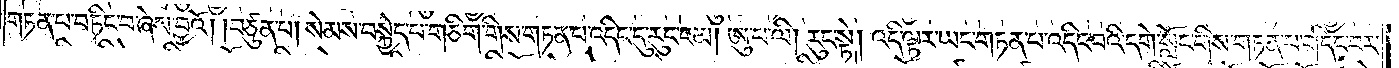གཏན་པ་བཏིང་བ་ཞེས་བྱའོ། །བཙུན་པ། སེམས་བསྐྱེད་པ་གཅིག་གིས་གཏན་པ་འདིང་དུ་རུང་ངམ། ཨུ་པ་ལི། རུང་སྟེ། འདི་ལྟར་ཡང་གཏན་པ་འདིང་བའི་དགེ་སློང་གིས་གཏན་པ་གདིང་བར་
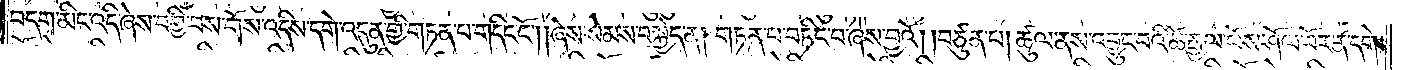བདག་མིང་འདི་ཞེས་བགྱི་བས་གོས་འདིས་དགེ་འདུན་གྱི་གཏན་པ་གདིང་ངོ༌། །ཞེས་སེམས་བསྐྱེད་ན། གཏན་པ་བཏིང་བ་ཞེས་བྱའོ། །བཙུན་པ། ཚུལ་ནས་འབྱུང་བའི་ཚེ་རྒྱལ་པོས་ཤོལ་བོར་ན་དགེ་
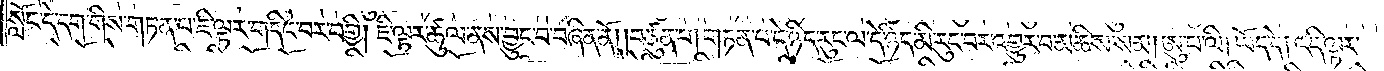སློང་དེ་དག་གིས་གཏན་པ་ཇི་ལྟར་གདིང་བར་བགྱི། ཇི་ལྟར་ཚུལ་ནས་བྱུང་བ་བཞིན་ནོ། །བཙུན་པ། གཏན་པ་དེ་ཉིད་རུང་ལ་དེ་ཉིད་མི་རུང་བར་འགྱུར་བ་མཆིས་སམ། ཨུ་པ་ལི། ཡོད་དེ། འདི་ལྟར་
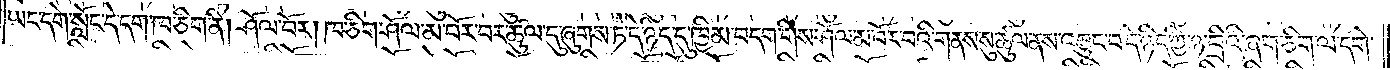ཡང་དགེ་སློང་དེ་དག་ཁ་ཅིག་ནི། ཤོལ་བོར། ཁ་ཅིག་ཤོལ་མ་བོར་བར་ཚུལ་དུ་ཞུགས་ཏེ་དེ་ཉིད་དུ་ཁྱིམ་བདག་གིས་ཤོལ་མ་བོར་བའི་གནས་སུ་ཚུལ་ནས་འབྱུང་བ་དེ་ཉིད་ཀྱི་ཉ་བྲིའི་ཞག་ཅིག་ལ་དགེ་
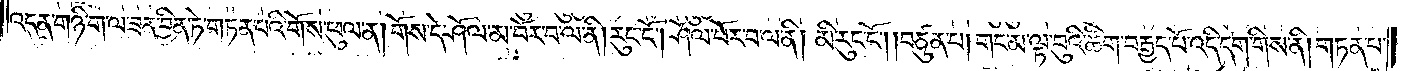འདུན་གཉི་ག་ལ་ཟན་བྱིན་ཏེ་གཏན་པའི་གོས་ཕུལ་ན། གོས་དེ་ཤོལ་མ་བོར་བ་ལ་ནི། རུང་ངོ༌། ཤོལ་བོར་བ་ལ་ནི། མི་རུང་ངོ༌། །བཙུན་པ། གང་མ་ལྟ་བུའི་ཚིག་བརྒྱད་པོ་འདི་དག་གིས་ནི། གཏན་པ་
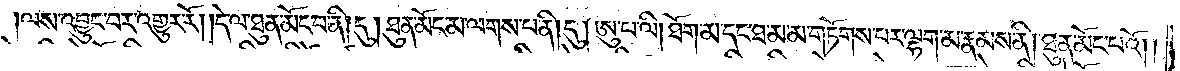།ལས་འབྱུང་བར་འགྱུར་རོ། །དེ་ལ་ཐུན་མོང་བ་ནི། དུ། ཐུན་མོང་མ་ལགས་པ་ནི། དུ། ཨུ་པ་ལི། ཐོག་མ་དང་ཐ་མ་མ་གཏོགས་པར་ལྷག་མ་རྣམས་ནི། ཐུན་མོང་པའོ། །
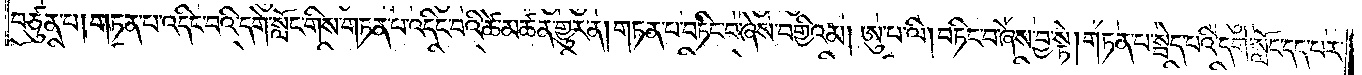བཙུན་པ། གཏན་པ་འདིང་བའི་དགེ་སློང་གིས་གཏན་པ་འདིང་བའི་ཚེ་མཚན་གྱུར་ན། གཏན་པ་བཏིང་བ་ཞེས་བགྱིའམ། ཨུ་པ་ལི། བཏིང་བ་ཞེས་བྱ་སྟེ། གཏན་པ་སྦེད་པའི་དགེ་སློང་དད་པར་
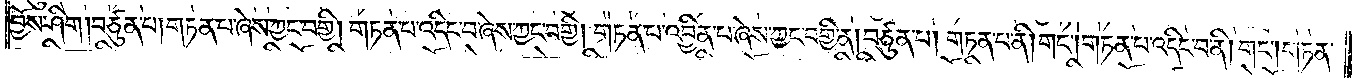བྱོས་ཤིག །བཙུན་པ། གཏན་པ་ཞེས་ཀྱང་བགྱི། གཏན་པ་འདིང་བ་ཞེས་ཀྱང་བགྱི། གཏན་པ་འབྱིན་པ་ཞེས་ཀྱང་བགྱི་ན། བཙུན་པ། གཏན་པ་ནི། གང༌། གཏན་པ་འདིང་བ་ནི། གང༌། གཏན་
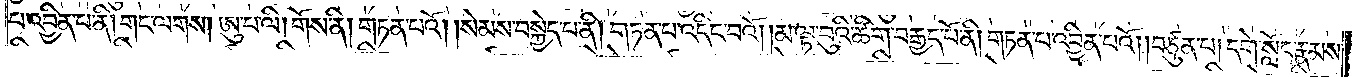པ་འབྱིན་པ་ནི། གང་ལགས། ཨུ་པ་ལི། གོས་ནི། གཏན་པའོ། །སེམས་བསྐྱེད་པ་ནི། གཏན་པ་འདིང་བའོ། །མ་ལྟ་བུའི་ཚིག་བརྒྱད་པོ་ནི། གཏན་པ་འབྱིན་པའོ། །བཙུན་པ། དགེ་སློང་རྣམས་
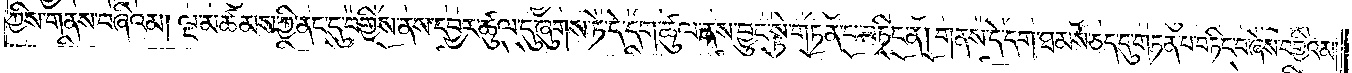ཀྱིས་གནས་བཞིའམ། ལྔ་མཚམས་ཀྱི་ནང་དུ་བགྱིས་ནས་དབྱར་ཚུལ་དུ་ཞུགས་ཏེ་དེ་དག་ཚུལ་ནས་བྱུང་སྟེ་གཏན་པ་བཏིང་ན། གནས་དེ་དག་ཐམས་ཅད་དུ་གཏན་པ་བཏིང་བ་ཞེས་བགྱིའམ།
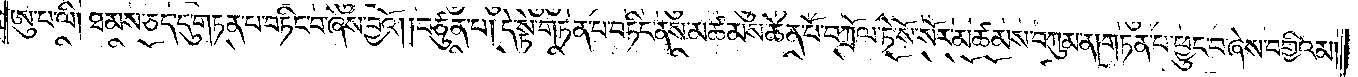ཨུ་པ་ལི། ཐམས་ཅད་དུ་གཏན་པ་བཏིང་བ་ཞེས་བྱའོ། །བཙུན་པ། དེ་སྟེ་གཏན་པ་བཏིང་ནས་མཚམས་ཆེན་པོ་བཀྲོལ་ཏེ་སོ་སོར་མཚམས་བཀུམ་ན། གཏན་པ་ཕྱུང་བ་ཞེས་བགྱིའམ།
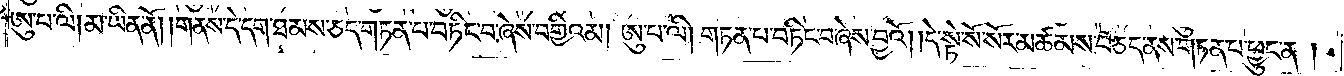ཨུ་པ་ལི། མ་ཡིན་ནོ། །གནས་དེ་དག་ཐམས་ཅད་གཏན་པ་བཏིང་བ་ཞེས་བགྱིའམ། ཨུ་པ་ལི། གཏན་པ་བཏིང་བ་ཞེས་བྱའོ། །དེ་སྟེ་སོ་སོར་མཚམས་བཅད་ནས་གཏན་པ་ཕྱུང་ན།
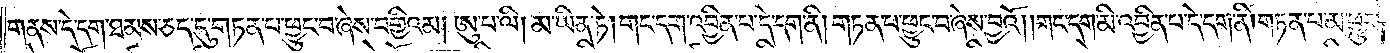གནས་དེ་དག་ཐམས་ཅད་དུ་གཏན་པ་ཕྱུང་བ་ཞེས་བགྱིའམ། ཨུ་པ་ལི། མ་ཡིན་ཏེ། གང་དག་འབྱིན་པ་དེ་དག་ནི། གཏན་པ་ཕྱུང་བ་ཞེས་བྱའོ། །གང་དག་མི་འབྱིན་པ་དེ་དག་ནི། གཏན་པ་མ་ཕྱུང་
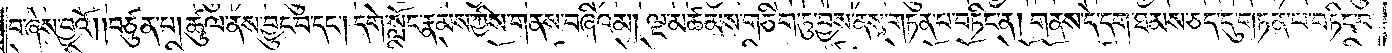བ་ཞེས་བྱའོ། །བཙུན་པ། ཚུལ་ནས་བྱུང་བ་དང༌། དགེ་སློང་རྣམས་ཀྱིས་གནས་བཞིའམ། ལྔ་མཚམས་གཅིག་ཏུ་བྱས་ནས་གཏན་པ་བཏིང་ན། གནས་དེ་དག་ཐམས་ཅད་དུ་གཏན་པ་བཏིང་བ་
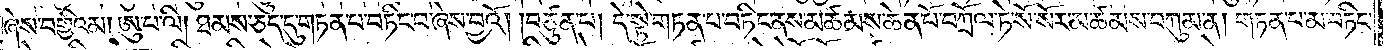ཞེས་བགྱིའམ། ཨུ་པ་ལི། ཐམས་ཅད་དུ་གཏན་པ་བཏིང་བ་ཞེས་བྱའོ། །བཙུན་པ། དེ་སྟེ་གཏན་པ་བཏིང་ནས་མཚམས་ཆེན་པོ་བཀྲོལ་ཏེ་སོ་སོར་མཚམས་བཀུམ་ན། གཏན་པ་མ་བཏིང་
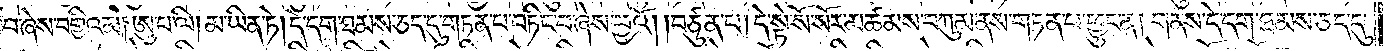བ་ཞེས་བགྱིའམ། ཨུ་པ་ལི། མ་ཡིན་ཏེ། དེ་དག་ཐམས་ཅད་དུ་གཏན་པ་བཏིང་བ་ཞེས་བྱའོ། །བཙུན་པ། དེ་སྟེ་སོ་སོར་མཚམས་བཀུམ་ནས་གཏན་པ་ཕྱུང་ན། གནས་དེ་དག་ཐམས་ཅད་དུ་
